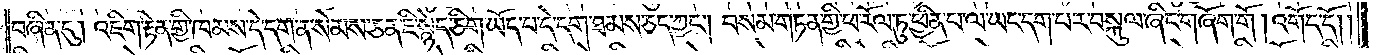བཞིན་དུ། འཇིག་རྟེན་གྱི་ཁམས་དེ་དག་ན་སེམས་ཅན་ཇི་སྙེད་ཅིག་ཡོད་པ་དེ་དག་ཐམས་ཅད་ཀྱང༌། བསམ་གཏན་གྱི་ཕ་རོལ་ཏུ་ཕྱིན་པ་ལ་ཡང་དག་པར་བསྐུལ་ཞིང་གཞོག་གོ །འགོད་དོ། །
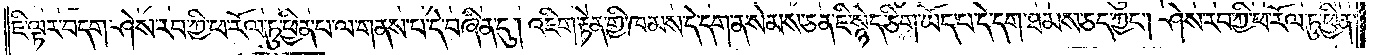ཇི་ལྟར་བདག་ཤེས་རབ་ཀྱི་ཕ་རོལ་ཏུ་ཕྱིན་པ་ལ་གནས་པ་དེ་བཞིན་དུ། འཇིག་རྟེན་གྱི་ཁམས་དེ་དག་ན་སེམས་ཅན་ཇི་སྙེད་ཅིག་ཡོད་པ་དེ་དག་ཐམས་ཅད་ཀྱང༌། ཤེས་རབ་ཀྱི་ཕ་རོལ་ཏུ་ཕྱིན་
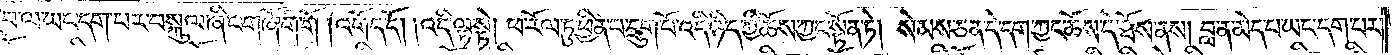པ་ལ་ཡང་དག་པར་བསྐུལ་ཞིང་གཞོག་གོ །འགོད་དོ། །འདི་ལྟ་སྟེ། ཕ་རོལ་ཏུ་ཕྱིན་པ་དྲུག་པོ་འདི་ཉིད་ཀྱི་ཆོས་ཀྱང་སྟོན་ཏེ། སེམས་ཅན་དེ་དག་ཀྱང་ཆོས་དེ་ཐོས་ནས། བླ་ན་མེད་པ་ཡང་དག་པར་
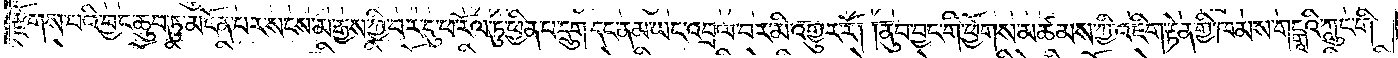རྫོགས་པའི་བྱང་ཆུབ་ཏུ་མངོན་པར་སངས་མ་རྒྱས་ཀྱི་བར་དུ་ཕ་རོལ་ཏུ་ཕྱིན་པ་དྲུག་དང་ནམ་ཡང་འབྲལ་བར་མི་འགྱུར་རོ། །ནུབ་བྱང་གི་ཕྱོགས་མཚམས་ཀྱི་འཇིག་རྟེན་གྱི་ཁམས་གངྒཱའི་ཀླུང་གི་
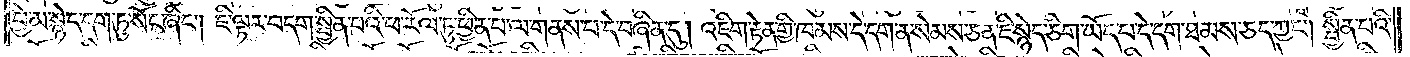བྱེ་མ་སྙེད་དག་ཏུ་སོང་ཞིང༌། ཇི་ལྟར་བདག་སྦྱིན་པའི་ཕ་རོལ་ཏུ་ཕྱིན་པ་ལ་གནས་པ་དེ་བཞིན་དུ། འཇིག་རྟེན་གྱི་ཁམས་དེ་དག་ན་སེམས་ཅན་ཇི་སྙེད་ཅིག་ཡོད་པ་དེ་དག་ཐམས་ཅད་ཀྱང༌། སྦྱིན་པའི་
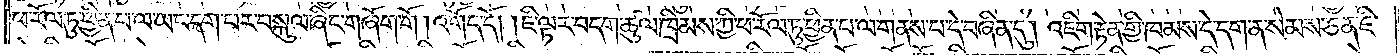ཕ་རོལ་ཏུ་ཕྱིན་པ་ལ་ཡང་དག་པར་བསྐུལ་ཞིང་གཞོག་གོ །འགོད་དོ། །ཇི་ལྟར་བདག་ཚུལ་ཁྲིམས་ཀྱི་ཕ་རོལ་ཏུ་ཕྱིན་པ་ལ་གནས་པ་དེ་བཞིན་དུ། འཇིག་རྟེན་གྱི་ཁམས་དེ་དག་ན་སེམས་ཅན་ཇི་
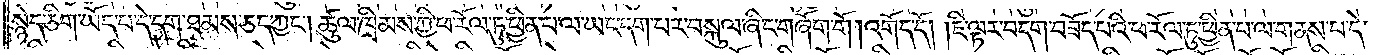སྙེད་ཅིག་ཡོད་པ་དེ་དག་ཐམས་ཅད་ཀྱང༌། ཚུལ་ཁྲིམས་ཀྱི་ཕ་རོལ་ཏུ་ཕྱིན་པ་ལ་ཡང་དག་པར་བསྐུལ་ཞིང་གཞོག་གོ །འགོད་དོ། །ཇི་ལྟར་བདག་བཟོད་པའི་ཕ་རོལ་ཏུ་ཕྱིན་པ་ལ་གནས་པ་དེ་
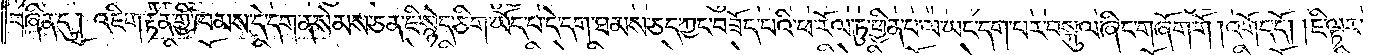བཞིན་དུ། འཇིག་རྟེན་གྱི་ཁམས་དེ་དག་ན་སེམས་ཅན་ཇི་སྙེད་ཅིག་ཡོད་པ་དེ་དག་ཐམས་ཅད་ཀྱང་བཟོད་པའི་ཕ་རོལ་ཏུ་ཕྱིན་པ་ལ་ཡང་དག་པར་བསྐུལ་ཞིང་གཞོག་གོ །འགོད་དོ། །ཇི་ལྟར་
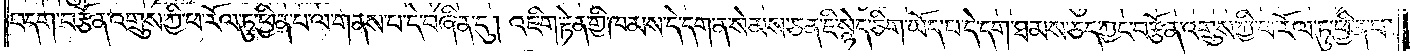བདག་བརྩོན་འགྲུས་ཀྱི་ཕ་རོལ་ཏུ་ཕྱིན་པ་ལ་གནས་པ་དེ་བཞིན་དུ། འཇིག་རྟེན་གྱི་ཁམས་དེ་དག་ན་སེམས་ཅན་ཇི་སྙེད་ཅིག་ཡོད་པ་དེ་དག་ཐམས་ཅད་ཀྱང་བརྩོན་འགྲུས་ཀྱི་ཕ་རོལ་ཏུ་ཕྱིན་པ་
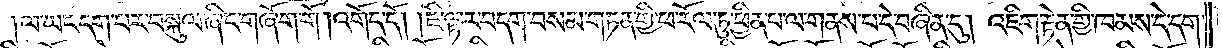ལ་ཡང་དག་པར་བསྐུལ་ཞིང་གཞོག་གོ །འགོད་དོ། །ཇི་ལྟར་བདག་བསམ་གཏན་གྱི་ཕ་རོལ་ཏུ་ཕྱིན་པ་ལ་གནས་པ་དེ་བཞིན་དུ། འཇིག་རྟེན་གྱི་ཁམས་དེ་དག་
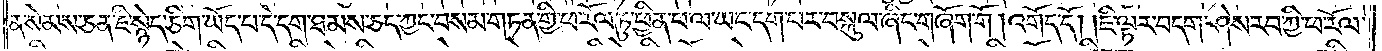ན་སེམས་ཅན་ཇི་སྙེད་ཅིག་ཡོད་པ་དེ་དག་ཐམས་ཅད་ཀྱང་བསམ་གཏན་གྱི་ཕ་རོལ་ཏུ་ཕྱིན་པ་ལ་ཡང་དག་པར་བསྐུལ་ཞིང་གཞོག་གོ །འགོད་དོ། །ཇི་ལྟར་བདག་ཤེས་རབ་ཀྱི་ཕ་རོལ་
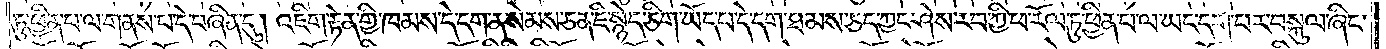ཏུ་ཕྱིན་པ་ལ་གནས་པ་དེ་བཞིན་དུ། འཇིག་རྟེན་གྱི་ཁམས་དེ་དག་ན་སེམས་ཅན་ཇི་སྙེད་ཅིག་ཡོད་པ་དེ་དག་ཐམས་ཅད་ཀྱང་ཤེས་རབ་ཀྱི་ཕ་རོལ་ཏུ་ཕྱིན་པ་ལ་ཡང་དག་པར་བསྐུལ་ཞིང་
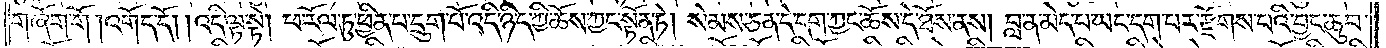གཞོག་གོ །འགོད་དོ། །འདི་ལྟ་སྟེ། ཕ་རོལ་ཏུ་ཕྱིན་པ་དྲུག་པོ་འདི་ཉིད་ཀྱི་ཆོས་ཀྱང་སྟོན་ཏེ། སེམས་ཅན་དེ་དག་ཀྱང་ཆོས་དེ་ཐོས་ནས། བླ་ན་མེད་པ་ཡང་དག་པར་རྫོགས་པའི་བྱང་ཆུབ་
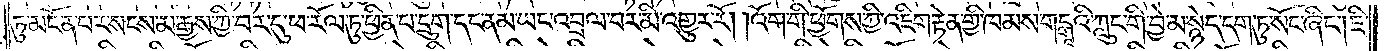ཏུ་མངོན་པར་སངས་མ་རྒྱས་ཀྱི་བར་དུ་ཕ་རོལ་ཏུ་ཕྱིན་པ་དྲུག་དང་ནམ་ཡང་འབྲལ་བར་མི་འགྱུར་རོ། །འོག་གི་ཕྱོགས་ཀྱི་འཇིག་རྟེན་གྱི་ཁམས་གངྒཱའི་ཀླུང་གི་བྱེ་མ་སྙེད་དག་ཏུ་སོང་ཞིང༌། ཇི་
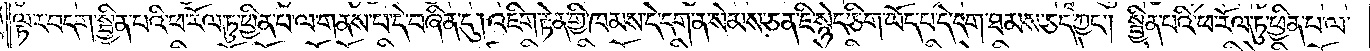ལྟར་བདག་སྦྱིན་པའི་ཕ་རོལ་ཏུ་ཕྱིན་པ་ལ་གནས་པ་དེ་བཞིན་དུ། འཇིག་རྟེན་གྱི་ཁམས་དེ་དག་ན་སེམས་ཅན་ཇི་སྙེད་ཅིག་ཡོད་པ་དེ་དག་ཐམས་ཅད་ཀྱང༌། སྦྱིན་པའི་ཕ་རོལ་ཏུ་ཕྱིན་པ་ལ་
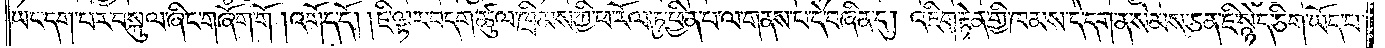ཡང་དག་པར་བསྐུལ་ཞིང་གཞོག་གོ །འགོད་དོ། །ཇི་ལྟར་བདག་ཚུལ་ཁྲིམས་ཀྱི་ཕ་རོལ་ཏུ་ཕྱིན་པ་ལ་གནས་པ་དེ་བཞིན་དུ། འཇིག་རྟེན་གྱི་ཁམས་དེ་དག་ན་སེམས་ཅན་ཇི་སྙེད་ཅིག་ཡོད་པ་
